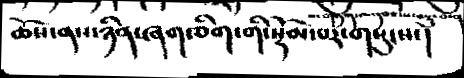ཆོས་ནས་ཉིན་ཞག་ཅིག་གི་སྡོམ་པར་གསུངས་།
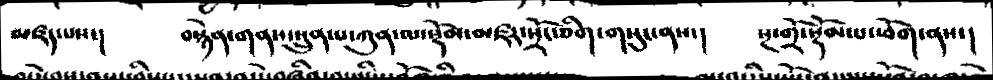མཛད་པས་།  བསྙེན་གནས་སྲུན་པ་ཀུན་ལ་སྡོམ་མཛར་སྲོང་ཅིག་གསུང་ནས་།  སྔ་གྲོ་སྡོམ་པ་ཕོག་ནས་།
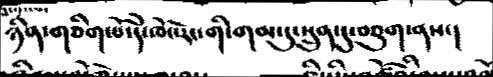ཉིན་གཅིག་པོ་དེ་ཁོང་རང་གི་གམ་དུ་སྲུན་དུ་བཅུག་ནས་།
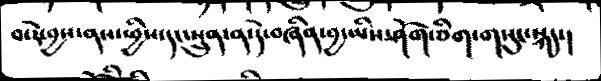བ་རེ་བྱས་ནས་ཕྱིས་དང་སྲུན་ན་དེ་བཞིན་བྱ་ཡིས་ཤོག་ཅིག་གསུང་སྐད་།
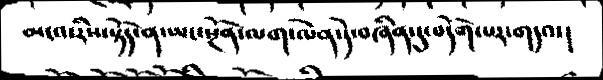མངའ་རིས་སྟོད་ན་ཡང་སྔོན་ལག་ལེན་དེ་བཞིན་དུ་བདོག་པར་གདའ་།
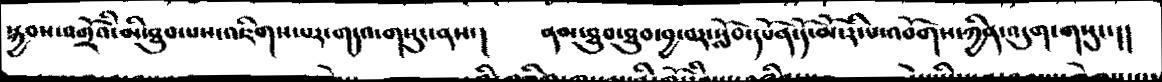སྐྱབས་འགྲོའི་མི་ཐུབ་པས་འཇིགས་པར་གདའ་གསུན་ནས་།  ནམ་ཐུབ་ཐུབ་བྱ་བར་སློབ་དཔོན་དོ་མོ་རི་པ་འབོགས་ཀྱིན་འདུག་གསུང་།།
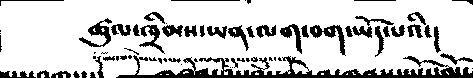ཚུལ་ཁྲིམས་ཡན་ལག་བག་ཡོད་པའི་།
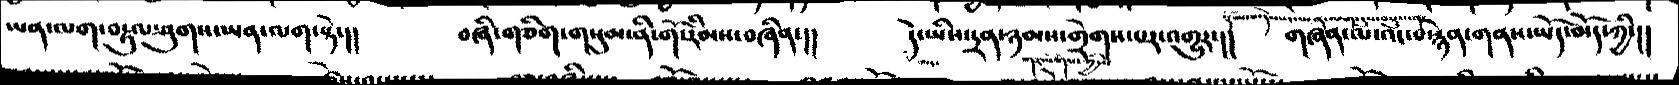ཡན་ལག་བརྟུལ་ཤུགས་ཡན་ལག་སྟེ་།།  བཞི་གཅིག་གསུམ་ནི་གོ་རིམས་བཞིན་།།  དེ་ཡིས་དྲན་ཉམས་གྲེགས་པར་འགྱུར་།།  གཞན་ལ་འང་བསྙན་ནས་ཡོད་མོད་ཀྱི་།།
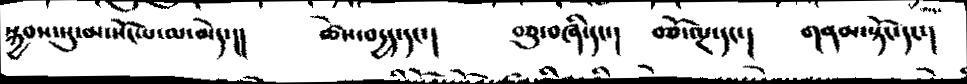སྐྱབས་སུ་མ་སོང་པ་མ་མེད་།།   ཚེས་བདྱད་དང་།   བཅུ་བཞི་དང་།  བཅོ་ལྔ་དང་།  གནམ་སྟོང་དང་།
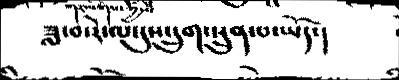ཟླ་བ་རེ་ལ་དུས་དྲུག་སྲུན་པ་ཡོད་།
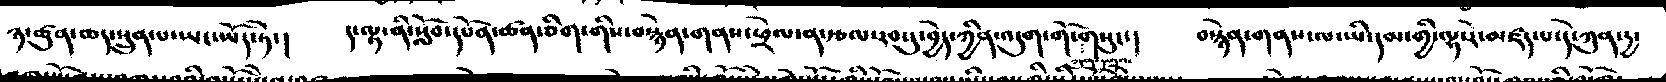ཉ་ཚུན་ཆད་སྲུན་པ་ཡང་ཡོད་ཏེ་།  ད་ལྟ་ནི་སློབ་དཔོན་ཚན་ཅིག་གིས་བསྙེན་ཕྲེལ་ན་རྩལ་རབ་དུ་བྱེད་ཀྱིན་འདུག་གོ་གསུང་།  བསྙེན་གནས་ལ་ཡི་དམ་གྱི་ལྷ་རེ་མཛད་པ་དེ་ཀུན་དྱ་
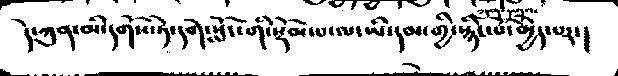དེ་ཀུན་མི་དགོས་ཏེ་དགེ་སློང་གི་སྡོམ་པ་ལ་ཡི་དམ་གྱི་སྙིང་པོ་མྱེད་པར་།
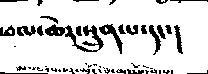ཕལ་ཆེར་སྲུན་པ་དང་།
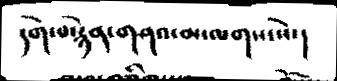དགེ་པ་རྙེན་གཤའ་མ་ལགས་སེ་།
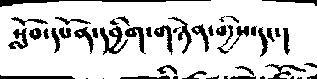སློབ་དཔོན་དབྱིག་གཉེན་གྱིས་དང་།
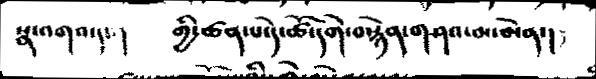སྣ་འགའ་དང་།  གྱི་ཚན་པ་དེ་ཚོ་དགེ་བསྙེན་གཤའ་མ་མེན་།
